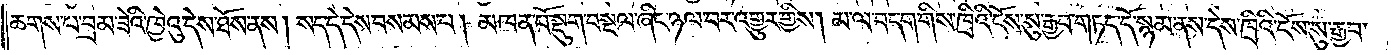ཆགས་པ་བྲམ་ཟེའི་ཁྱེའུ་དེས་ཐོས་ནས། སད་དེ་དེས་བསམས་པ། མཁན་པོ་སྡུག་བསྔལ་ཞིང་ཉལ་བར་འགྱུར་གྱིས། མ་ལ་བདག་གིས་ཁྲིའི་ངོས་སུ་རྒྱབ་གཏད་དོ་སྙམ་ནས་དེས་ཁྲིའི་ངོས་སུ་རྒྱབ་
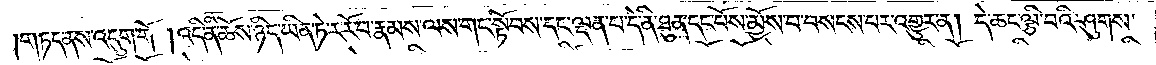གཏད་ནས་འདུག་གོ །འདི་ནི་ཆོས་ཉིད་ཡིན་ཏེ་ར་རོ་བ་རྣམས་ལས་གང་སྟོབས་དང་ལྡན་པ་དེ་ནི་ཐུན་དང་པོས་མྱོས་པ་བསངས་པར་འགྱུར་ན། དེ་ཆང་ལྕི་བའི་ཤུགས་
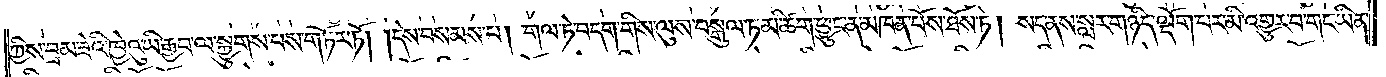ཀྱིས་བྲམ་ཟེའི་ཁྱེའུ་ཡི་རྒྱབ་ལ་སྐྱུགས་པས་གཏོར་ཏོ། །དེས་བསམས་པ། གལ་ཏེ་བདག་གིས་ལུས་བསྒུལ་ཏམ་ཚིག་ཕྱུང་ན་མཁན་པོས་ཐོས་ཏེ། སད་ནས་སླར་གཉིད་ལྡོག་པར་མི་འགྱུར་བ་གང་ཡིན་
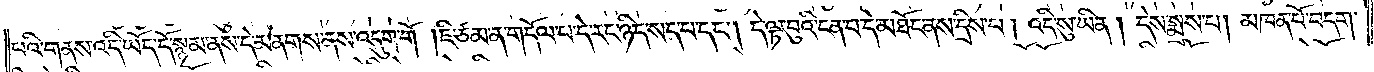པའི་གནས་འདི་ཡོད་དོ་སྙམ་ནས་དེ་མནགས་ནས་འདུག་གོ །ཇི་ཙམ་ན་གདོལ་པ་དེ་རང་ཉིད་སད་པ་དང༌། དེ་ལྟ་བུའི་ངན་པ་དེ་མཐོང་ནས་དྲིས་པ། འདི་སུ་ཡིན། དེས་སྨྲས་པ། མཁན་པོ་བདག་
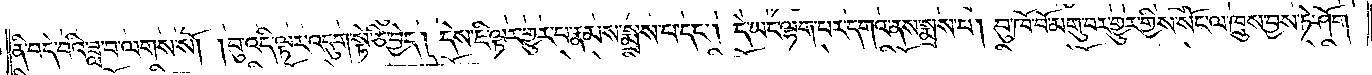ནི་བདེ་བའི་ཟླ་བ་ལགས་སོ། །བུ་འདི་ལྟར་འདུག་སྟེ་ཅི་བྱེད། དེས་ཇི་ལྟར་གྱུར་པ་རྣམས་སྨྲས་པ་དང༌། དེ་ཡང་ལྷག་པར་དགའ་ནས་སྨྲས་པ། བུ་ཁོ་བོ་མགུ་བར་གྱུར་གྱིས་སོང་ལ་ཁྲུས་བྱས་ཏེ་ཤོག་
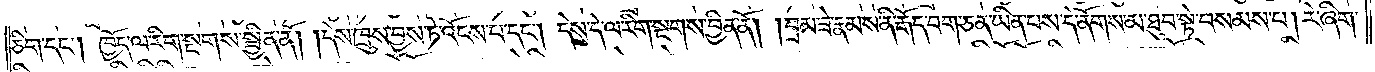ཅིག་དང༌། ཁྱོད་ལ་རིག་སྔགས་སྦྱིན་ནོ། །དེས་ཁྲུས་བྱས་ཏེ་འོངས་པ་དང༌། དེས་དེ་ལ་རིག་སྔགས་བྱིན་ནོ། །བྲམ་ཟེ་རྣམས་ནི་རྒོད་པག་ཅན་ཡིན་པས་དེ་ནོགས་མ་ཐུབ་སྟེ་བསམས་པ། རེ་ཞིག་
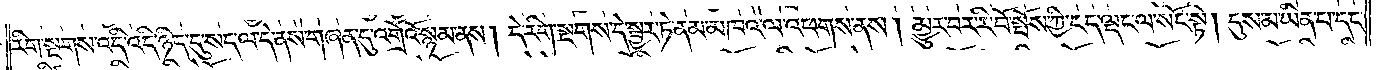རིག་སྔགས་འདི་འདི་ཉིད་དུ་སད་ལ་དེ་ནས་གཞན་དུ་འགྲོའོ་སྙམ་ནས། དེས་རིག་སྔགས་དེ་སྦྱར་ཏེ་ནམ་མཁའ་ལ་འཕགས་ནས། མྱུར་བར་རི་བོ་སྤོས་ཀྱི་ངད་ལྡང་ལ་སོང་སྟེ། དུས་མ་ཡིན་པ་དང་
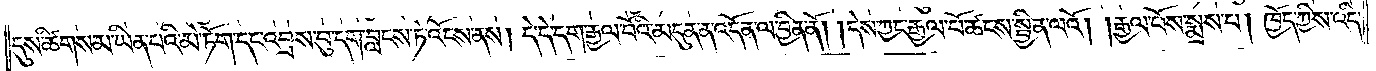དུས་ཚིགས་མ་ཡིན་པའི་མེ་ཏོག་དང་འབྲས་བུ་དག་བླངས་ཏེ་འོངས་ནས། དེ་དེ་དག་རྒྱལ་པོའི་མདུན་ན་འདོན་ལ་བྱིན་ནོ། །དེས་ཀྱང་རྒྱལ་པོ་ཚངས་སྦྱིན་ལའོ། །རྒྱལ་པོས་སྨྲས་པ། ཁྱོད་ཀྱིས་འདི་
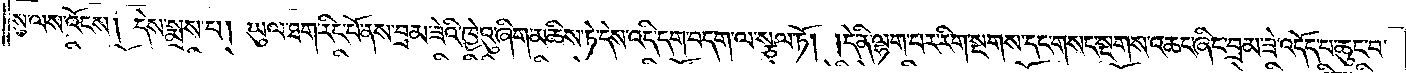སུ་ལས་འོངས། དེས་སྨྲས་པ། ཡུལ་ཐག་རིང་པོ་ནས་བྲམ་ཟེའི་ཁྱེའུ་ཞིག་མཆིས་ཏེ་དེས་འདི་དག་བདག་ལ་སྩལ་ཏོ། །དེ་ནི་ལྷག་པར་རིག་སྔགས་དང་གསང་སྔགས་འཆང་ཞིང་བྲམ་ཟེ་འདོད་པ་ཆུང་བ་
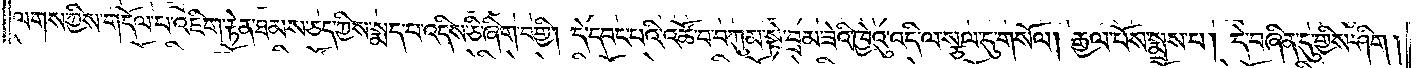ལགས་ཀྱིས་གདོལ་པ་འཇིག་རྟེན་ཐམས་ཅད་ཀྱིས་སྨད་པ་འདིས་ཅི་ཞིག་བགྱི། དེ་དབང་པའི་འཚོ་བ་བཀུམ་སྟེ་བྲམ་ཟེའི་ཁྱེའུ་འདི་ལ་སྩལ་དུ་གསོལ། རྒྱལ་པོས་སྨྲས་པ། དེ་བཞིན་དུ་གྱིས་ཤིག །
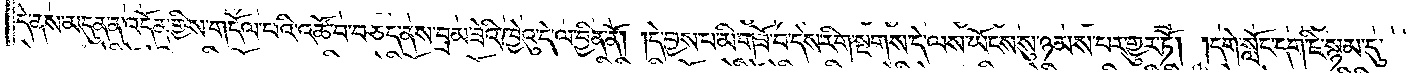དེ་ནས་མདུན་ན་འདོན་གྱིས་གདོལ་བའི་འཚོ་བ་བཅད་ནས་བྲམ་ཟེའི་ཁྱེའུ་དེ་ལ་བྱིན་ནོ། དེ་བྱས་པ་མི་གཟོ་བ་དེས་རིག་སྔགས་དེ་ལས་ཡོངས་སུ་ཉམས་པར་གྱུར་ཏོ། །དགེ་སློང་དག་ཇི་སྙམ་དུ་
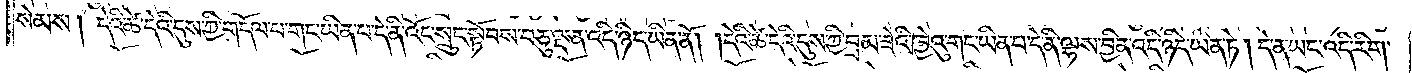སེམས། དེའི་ཚེ་དེའི་དུས་ཀྱི་གདོལ་བ་གང་ཡིན་པ་དེ་ནི་འོད་སྲུང་སྟོབས་བཅུ་ལྡན་འདི་ཉིད་ཡིན་ནོ། །དེའི་ཚེ་དེའི་དུས་ཀྱི་བྲམ་ཟེའི་ཁྱེའུ་གང་ཡིན་པ་དེ་ནི་ལྷས་བྱིན་འདི་ཉིད་ཡིན་ཏེ། དེ་ན་ཡང་འདི་རིག་
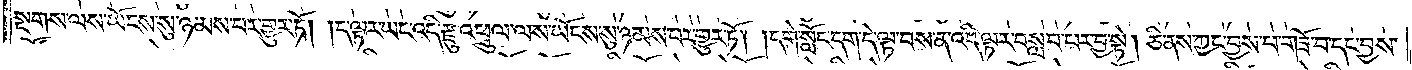སྔགས་ལས་ཡོངས་སུ་ཉམས་པར་གྱུར་ཏོ། །ད་ལྟར་ཡང་འདི་རྫུ་འཕྲུལ་ལས་ཡོངས་སུ་ཉམས་པར་གྱུར་ཏོ། །དགེ་སློང་དག་དེ་ལྟ་བས་ན་འདི་ལྟར་བསླབ་པར་བྱ་སྟེ། ཅི་ནས་ཀྱང་བྱས་པ་གཟོ་བ་དང་བྱས་
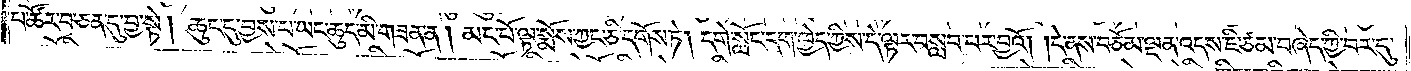པ་ཚོར་བ་ཅན་དུ་བྱ་སྟེ། ཆུང་དུ་བྱས་པ་ཡང་ཆུད་མི་གཟན་ན། མང་པོ་ལྟ་སྨོས་ཀྱང་ཅི་དགོས་ཏེ། དགེ་སློང་དག་ཁྱེད་ཀྱིས་དེ་ལྟར་བསླབ་པར་བྱའོ། །དེ་ནས་བཅོམ་ལྡན་འདས་ཇི་ཙམ་བཞེད་ཀྱི་བར་དུ་
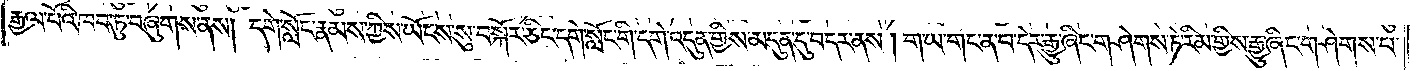རྒྱལ་པོའི་ཁབ་ཏུ་བཞུགས་ནས། དགེ་སློང་རྣམས་ཀྱིས་ཡོངས་སུ་བསྐོར་ཅིང་དགེ་སློང་གི་དགེ་འདུན་གྱིས་མདུན་དུ་བདར་ནས། ག་ཡ་གང་ན་བ་དེར་རྒྱུ་ཞིང་གཤེགས་ཏེ་རིམ་གྱིས་རྒྱུ་ཞིང་གཤེགས་པ་
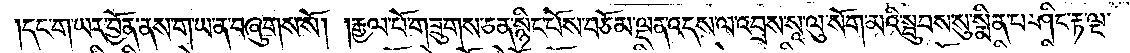དང་ག་ཡར་བྱོན་ནས་ག་ཡ་ན་བཞུགས་སོ། །རྒྱལ་པོ་གཟུགས་ཅན་སྙིང་པོས་བཅོམ་ལྡན་འདས་ལ་འབྲས་སཱ་ལུ་སོག་མའི་སྦུབས་སུ་སྨིན་པ་ཤིང་རྟ་ལྔ་
